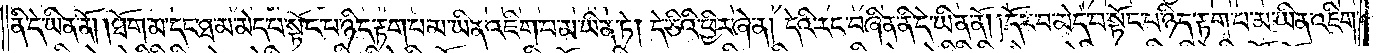ནི་དེ་ཡིན་ནོ། །ཐོག་མ་དང་ཐ་མ་མེད་པ་སྟོང་པ་ཉིད་རྟག་པ་མ་ཡིན་འཇིག་པ་མ་ཡིན་ཏེ། དེ་ཅིའི་ཕྱིར་ཞེ་ན། དེའི་རང་བཞིན་ནི་དེ་ཡིན་ནོ། །དོར་བ་མེད་པ་སྟོང་པ་ཉིད་རྟག་པ་མ་ཡིན་འཇིག་
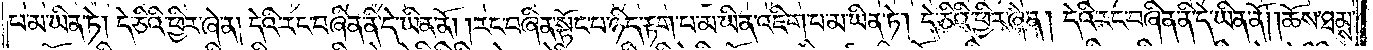པ་མ་ཡིན་ཏེ། དེ་ཅིའི་ཕྱིར་ཞེ་ན། དེའི་རང་བཞིན་ནི་དེ་ཡིན་ནོ། །རང་བཞིན་སྟོང་པ་ཉིད་རྟག་པ་མ་ཡིན་འཇིག་པ་མ་ཡིན་ཏེ། དེ་ཅིའི་ཕྱིར་ཞེ་ན། དེའི་རང་བཞིན་ནི་དེ་ཡིན་ནོ། །ཆོས་ཐམས་
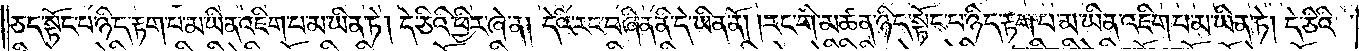ཅད་སྟོང་པ་ཉིད་རྟག་པ་མ་ཡིན་འཇིག་པ་མ་ཡིན་ཏེ། དེ་ཅིའི་ཕྱིར་ཞེ་ན། དེའི་རང་བཞིན་ནི་དེ་ཡིན་ནོ། །རང་གི་མཚན་ཉིད་སྟོང་པ་ཉིད་རྟག་པ་མ་ཡིན་འཇིག་པ་མ་ཡིན་ཏེ། དེ་ཅིའི་
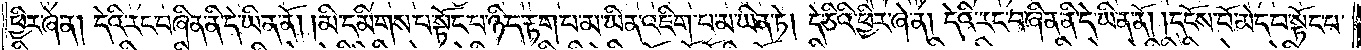ཕྱིར་ཞེ་ན། དེའི་རང་བཞིན་ནི་དེ་ཡིན་ནོ། །མི་དམིགས་པ་སྟོང་པ་ཉིད་རྟག་པ་མ་ཡིན་འཇིག་པ་མ་ཡིན་ཏེ། དེ་ཅིའི་ཕྱིར་ཞེ་ན། དེའི་རང་བཞིན་ནི་དེ་ཡིན་ནོ། །དངོས་པོ་མེད་པ་སྟོང་པ་
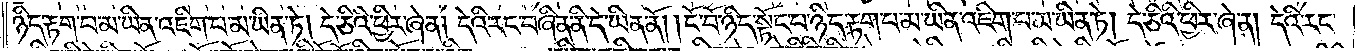ཉིད་རྟག་པ་མ་ཡིན་འཇིག་པ་མ་ཡིན་ཏེ། དེ་ཅིའི་ཕྱིར་ཞེ་ན། དེའི་རང་བཞིན་ནི་དེ་ཡིན་ནོ། །ངོ་བོ་ཉིད་སྟོང་པ་ཉིད་རྟག་པ་མ་ཡིན་འཇིག་པ་མ་ཡིན་ཏེ། དེ་ཅིའི་ཕྱིར་ཞེ་ན། དེའི་རང་
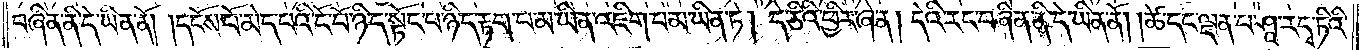བཞིན་ནི་དེ་ཡིན་ནོ། །དངོས་པོ་མེད་པའི་ངོ་བོ་ཉིད་སྟོང་པ་ཉིད་རྟག་པ་མ་ཡིན་འཇིག་པ་མ་ཡིན་ཏེ། དེ་ཅིའི་ཕྱིར་ཞེ་ན། དེའི་རང་བཞིན་ནི་དེ་ཡིན་ནོ། །ཚེ་དང་ལྡན་པ་ཤཱ་ར་དྭ་ཏིའི་
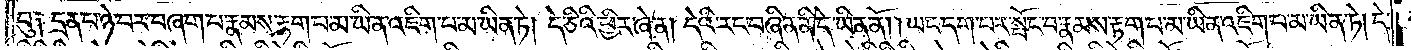བུ༑ དྲན་པ་ཉེ་བར་བཞག་པ་རྣམས་རྟག་པ་མ་ཡིན་འཇིག་པ་མ་ཡིན་ཏེ། དེ་ཅིའི་ཕྱིར་ཞེ་ན། དེའི་རང་བཞིན་ནི་དེ་ཡིན་ནོ། །ཡང་དག་པར་སྤོང་བ་རྣམས་རྟག་པ་མ་ཡིན་འཇིག་པ་མ་ཡིན་ཏེ། དེ་
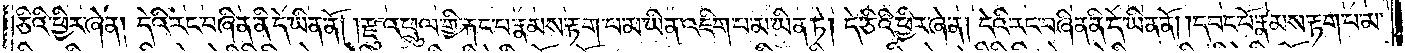ཅིའི་ཕྱིར་ཞེ་ན། དེའི་རང་བཞིན་ནི་དེ་ཡིན་ནོ། །རྫུ་འཕྲུལ་གྱི་རྐང་པ་རྣམས་རྟག་པ་མ་ཡིན་འཇིག་པ་མ་ཡིན་ཏེ། དེ་ཅིའི་ཕྱིར་ཞེ་ན། དེའི་རང་བཞིན་ནི་དེ་ཡིན་ནོ། །དབང་པོ་རྣམས་རྟག་པ་མ་
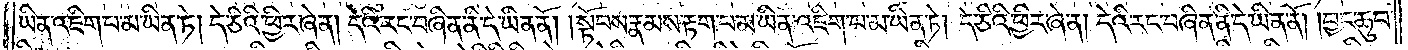ཡིན་འཇིག་པ་མ་ཡིན་ཏེ། དེ་ཅིའི་ཕྱིར་ཞེ་ན། དེའི་རང་བཞིན་ནི་དེ་ཡིན་ནོ། །སྟོབས་རྣམས་རྟག་པ་མ་ཡིན་འཇིག་པ་མ་ཡིན་ཏེ། དེ་ཅིའི་ཕྱིར་ཞེ་ན། དེའི་རང་བཞིན་ནི་དེ་ཡིན་ནོ། །བྱང་ཆུབ་
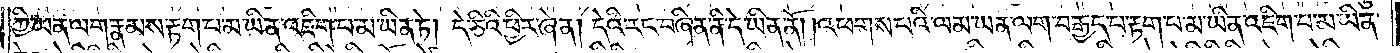ཀྱི་ཡན་ལག་རྣམས་རྟག་པ་མ་ཡིན་འཇིག་པ་མ་ཡིན་ཏེ། དེ་ཅིའི་ཕྱིར་ཞེ་ན། དེའི་རང་བཞིན་ནི་དེ་ཡིན་ནོ། །འཕགས་པའི་ལམ་ཡན་ལག་བརྒྱད་པ་རྟག་པ་མ་ཡིན་འཇིག་པ་མ་ཡིན་
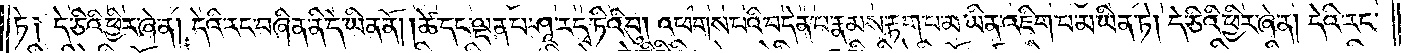ཏེ༑ དེ་ཅིའི་ཕྱིར་ཞེ་ན། དེའི་རང་བཞིན་ནི་དེ་ཡིན་ནོ། །ཚེ་དང་ལྡན་པ་ཤཱ་ར་དྭ་ཏིའི་བུ། འཕགས་པའི་བདེན་པ་རྣམས་རྟག་པ་མ་ཡིན་འཇིག་པ་མ་ཡིན་ཏེ། དེ་ཅིའི་ཕྱིར་ཞེ་ན། དེའི་རང་
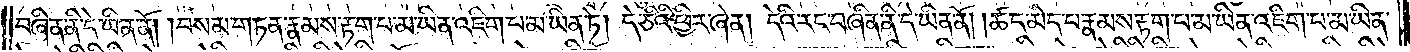བཞིན་ནི་དེ་ཡིན་ནོ། །བསམ་གཏན་རྣམས་རྟག་པ་མ་ཡིན་འཇིག་པ་མ་ཡིན་ཏེ། དེ་ཅིའི་ཕྱིར་ཞེ་ན། དེའི་རང་བཞིན་ནི་དེ་ཡིན་ནོ། །ཚད་མེད་པ་རྣམས་རྟག་པ་མ་ཡིན་འཇིག་པ་མ་ཡིན་
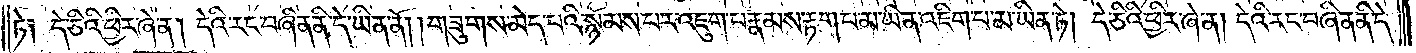ཏེ༑ དེ་ཅིའི་ཕྱིར་ཞེ་ན། དེའི་རང་བཞིན་ནི་དེ་ཡིན་ནོ། །གཟུགས་མེད་པའི་སྙོམས་པར་འཇུག་པ་རྣམས་རྟག་པ་མ་ཡིན་འཇིག་པ་མ་ཡིན་ཏེ། དེ་ཅིའི་ཕྱིར་ཞེ་ན། དེའི་རང་བཞིན་ནི་དེ་
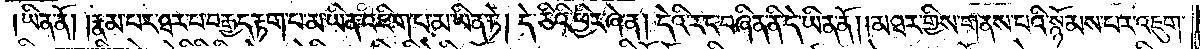ཡིན་ནོ། །རྣམ་པར་ཐར་པ་བརྒྱད་རྟག་པ་མ་ཡིན་འཇིག་པ་མ་ཡིན་ཏེ། དེ་ཅིའི་ཕྱིར་ཞེ་ན། དེའི་རང་བཞིན་ནི་དེ་ཡིན་ནོ། །མཐར་གྱིས་གནས་པའི་སྙོམས་པར་འཇུག་
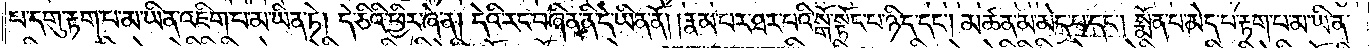པ་དགུ་རྟག་པ་མ་ཡིན་འཇིག་པ་མ་ཡིན་ཏེ། དེ་ཅིའི་ཕྱིར་ཞེ་ན། དེའི་རང་བཞིན་ནི་དེ་ཡིན་ནོ། །རྣམ་པར་ཐར་པའི་སྒོ་སྟོང་པ་ཉིད་དང༌། མཚན་མ་མེད་པ་དང༌། སྨོན་པ་མེད་པ་རྟག་པ་མ་ཡིན་
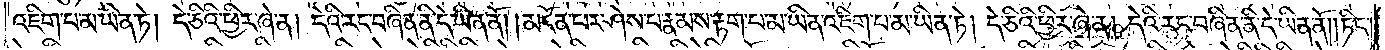འཇིག་པ་མ་ཡིན་ཏེ། དེ་ཅིའི་ཕྱིར་ཞེ་ན། དེའི་རང་བཞིན་ནི་དེ་ཡིན་ནོ། །མངོན་པར་ཤེས་པ་རྣམས་རྟག་པ་མ་ཡིན་འཇིག་པ་མ་ཡིན་ཏེ། དེ་ཅིའི་ཕྱིར་ཞེ་ན། དེའི་རང་བཞིན་ནི་དེ་ཡིན་ནོ། །ཏིང་
